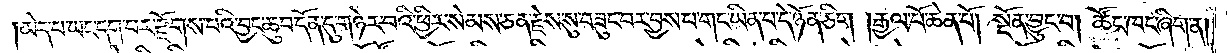།མེད་པ་ཡང་དག་པར་རྫོགས་པའི་བྱང་ཆུབ་དོན་དུ་གཉེར་བའི་ཕྱིར་སེམས་ཅན་རྗེས་སུ་བཟུང་བར་བྱས་པ་གང་ཡིན་པ་དེ་ཉོན་ཅིག །རྒྱལ་པོ་ཆེན་པོ། སྔོན་བྱུང་བ། ཚོང་ཁང་ཞིག་ན།
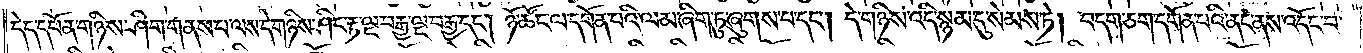དེད་དཔོན་གཉིས་ཤིག་གནས་པ་ལས་དེ་གཉིས་ཤིང་རྟ་ལྔ་བརྒྱ་ལྔ་བརྒྱ་དང༌། ཉོ་ཚོང་ལ་དགོན་པའི་ལམ་ཞིག་ཏུ་ཞུགས་པ་དང༌། དེ་གཉིས་འདི་སྙམ་དུ་སེམས་ཏེ། བདག་ཅག་དགོན་པའི་ནང་ནས་འདོད་པ་
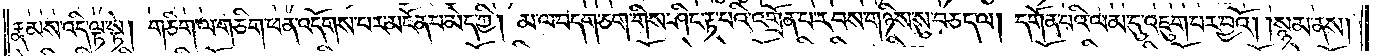རྣམས་འདི་ལྟ་སྟེ། གཅིག་ལ་གཅིག་ཕན་འདོགས་པར་མངོན་པ་མེད་ཀྱི། མ་ལ་བདག་ཅག་གིས་ཤིང་རྟ་པའི་འགྲོན་པ་རབས་གཉིས་སུ་བཅད་ལ། དགོན་པའི་ལམ་དུ་འཇུག་པར་བྱའོ། །སྙམ་ནས།
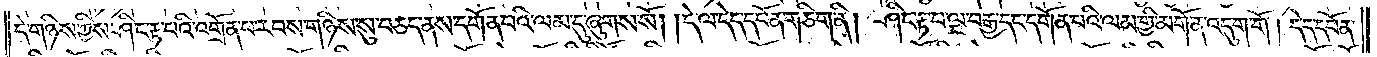དེ་གཉིས་ཀྱིས་ཤིང་རྟ་པའི་འགྲོན་པ་རབས་གཉིས་སུ་བཅད་ནས་དགོན་པའི་ལམ་དུ་ཞུགས་སོ། །དེ་ལ་དེད་དཔོན་གཅིག་ནི། ཤིང་རྟ་པ་ལྔ་བརྒྱ་དང་དགོན་པའི་ལམ་གྱི་མགོན་འདུག་གོ། དེད་དཔོན་
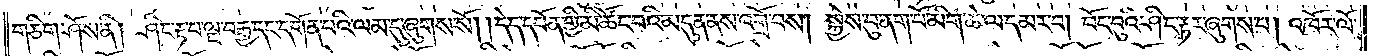གཅིག་ཤོས་ནི། ཤིང་རྟ་པ་ལྔ་བརྒྱ་དང་དགོན་པའི་ལམ་དུ་ཞུགས་སོ། །དེད་དཔོན་གྱི་མི་ཚོང་བའི་མདུན་ནས་འགྲོ་བས། སྐྱེས་བུ་ནག་པོ་མིག་ཆེ་ལ་དམར་བ། བོང་བུའི་ཤིང་རྟར་ཞུགས་པ། འཁོར་ལོ་
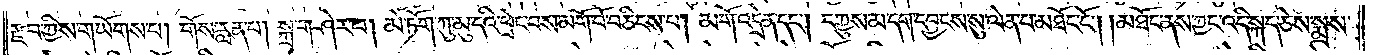རྫབ་ཀྱིས་གཡོགས་པ། གོས་རླན་པ། སྐྲ་གཤེར་བ། མེ་ཏོག་ཀུ་མུ་དའི་ཕྲེང་བས་མགོ་བོ་བཅིངས་པ། མགོ་འདྲེན་དང༌། དཀྱུས་མ་དག་དབྱངས་སུ་ལེན་པ་མཐོང་ངོ༌། །མཐོང་ནས་ཀྱང་འདི་སྐད་ཅེས་སྨྲས་
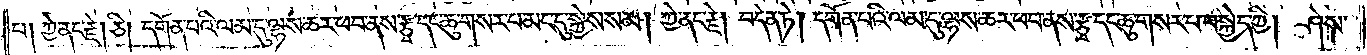པ། ཀྱེ་ནང་རྗེ། ཅི། དགོན་པའི་ལམ་དུ་ལྷས་ཆར་ཕབ་ནས་རྩྭ་དང་ཆུ་གསར་པ་མང་དུ་སྐྱེས་སམ། ཀྱེ་ནང་རྗེ། བདེན་ཏེ། དགོན་པའི་ལམ་དུ་ལྷས་ཆར་ཕབ་ནས་རྩྭ་དང་ཆུ་གསར་པ་བསྐྱེད་ཀྱི། ཤེས་
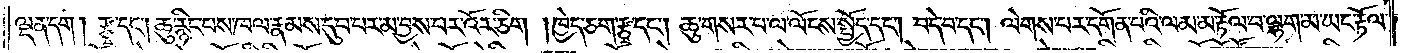ལྡན་དག། རྩྭ་དང༌། ཆུ་རྙིང་པས་ཁལ་རྣམས་དུབ་པར་མ་བྱས་པར་འོར་ཅིག །ཁྱེད་ཅག་རྩྭ་དང༌། ཆུ་གསར་པ་ལ་ལོངས་སྤྱོད་དང༌། བདེ་བ་དང༌། ལེགས་པར་དགོན་པའི་ལམ་མ་རྟོལ་བ་ལྷག་མ་ཡང་རྟོལ་
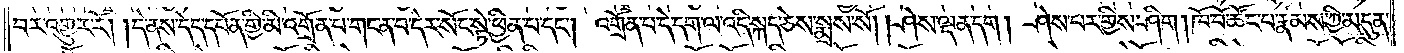བར་འགྱུར་རོ། །དེ་ནས་དེད་དཔོན་གྱི་མི་འགྲོན་པ་གང་ན་བ་དེར་སོང་སྟེ་ཕྱིན་པ་དང༌། འགྲོན་པ་དེ་དག་ལ་འདི་སྐད་ཅེས་སྨྲས་སོ། །ཤེས་ལྡན་དག། ཤེས་པར་གྱིས་ཤིག །ཁོ་བོ་ཚོང་པ་རྣམས་ཀྱི་མདུན་
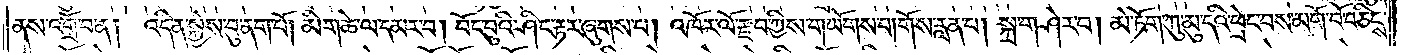ནས་འགྲོ་བ་ན། འདི་ན་སྐྱེས་བུ་ནག་པོ། མིག་ཆེ་ལ་དམར་བ། བོང་བུའི་ཤིང་རྟར་ཞུགས་པ། འཁོར་ལོ་རྫབ་ཀྱིས་གཡོགས་པ། གོས་རླན་པ། སྐྲ་གཤེར་བ། མེ་ཏོག་ཀུ་མུ་དའི་ཕྲེང་བས་མགོ་བོ་བཅིངས་
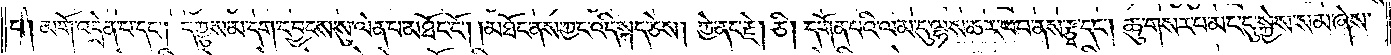པ། མགོ་འདྲེན་པ་དང༌། དཀྱུས་མ་དག་དབྱངས་སུ་ལེན་པ་མཐོང་ངོ༌། །མཐོང་ནས་ཀྱང་འདི་སྐད་ཅེས། ཀྱེ་ནང་རྗེ། ཅི། དགོན་པའི་ལམ་དུ་ལྷས་ཆར་ཕབ་ནས་རྩྭ་དང༌། ཆུ་གསར་པ་མང་དུ་སྐྱེས་སམ་ཞེས་
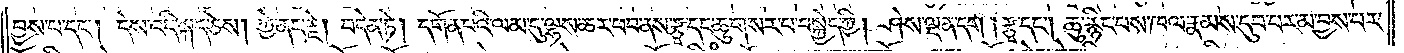བྱས་པ་དང༌། དེས་འདི་སྐད་ཅེས། ཀྱེ་ནང་རྗེ། བདེན་ཏེ། དགོན་པའི་ལམ་དུ་ལྷས་ཆར་ཕབ་ནས་རྩྭ་དང་ཆུ་གསར་པ་བསྐྱེད་ཀྱི། ཤེས་ལྡན་དག །རྩྭ་དང༌། ཆུ་རྙིང་པས་ཁལ་རྣམས་དུབ་པར་མ་བྱས་པར་
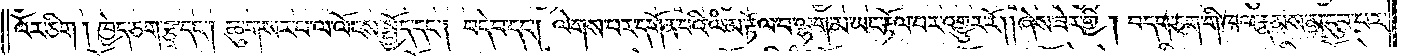འོར་ཅིག །ཁྱེད་ཅག་རྩྭ་དང༌། ཆུ་གསར་པ་ལ་ལོངས་སྤྱོད་དང༌། བདེ་བ་དང༌། ལེགས་པར་དགོན་པའི་ལཾ་མ་རྟོལ་བ་ལྷག་མ་ཡང་རྟོལ་བར་འགྱུར་རོ། །ཞེས་ཟེར་གྱི། བདག་ཅག་གི་ཁལ་རྣམས་མ་དུབ་པར་
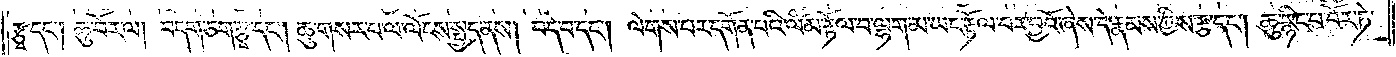རྩྭ་དང༌། ཆུ་བོར་ལ། བདག་ཅག་རྩྭ་དང༌། ཆུ་གསར་པ་ལ་ལོངས་སྤྱད་ནས། བདེ་བ་དང༌། ལེགས་པར་དགོན་པའི་ལཾ་མ་རྟོལ་བ་ལྷག་མ་ཡང་རྟོལ་བར་བྱའོ་ཞེས་དེ་རྣམས་ཀྱིས་རྩ་དང༌། ཆུ་རྙིང་པ་བོར་ཏེ་
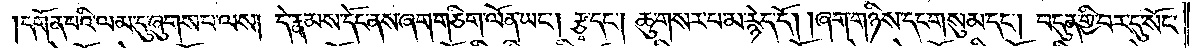དགོན་པའི་ལམ་དུ་ཞུགས་པ་ལས། དེ་རྣམས་དོང་ནས་ཞག་གཅིག་ལོན་ཡང༌། རྩྭ་དང༌། ཆུ་གསར་པ་མ་རྙེད་དོ། །ཞག་གཉིས་དང་གསུམ་དང༌། བདུན་གྱི་བར་དུ་སོང་
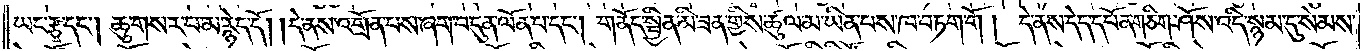ཡང་རྩྭ་དང༌། ཆུ་གསར་པ་མ་རྙེད་དོ། །དེ་ནས་འགྲོན་པས་ཞག་བདུན་ལོན་པ་དང༌། གནོད་སྦྱིན་མི་ཟན་གྱིས་ཚུལ་མ་ཡིན་པས་ཁ་བཏག་གོ། དེ་ནས་དེད་དཔོན་གཅིག་ཤོས་འདི་སྙམ་དུ་སེམས་
